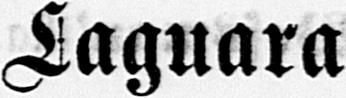Laguara
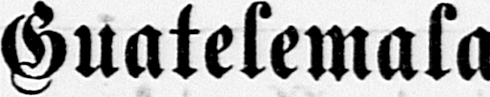Guatelemala
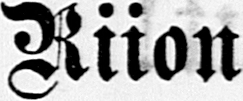Riion
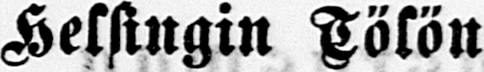Helsingin Tölön
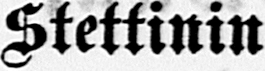Stettinin
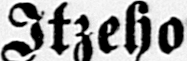Itzeho
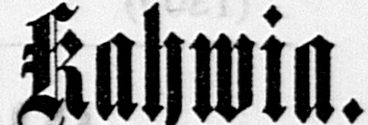Kahwia.
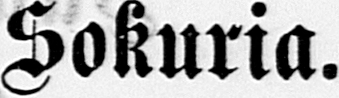Sokuria.
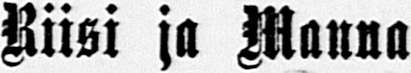Riisi ja Manna
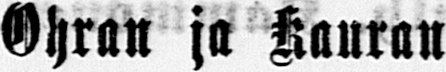Ohran ja kauran
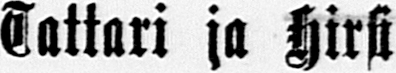Tattari ja Hirsi
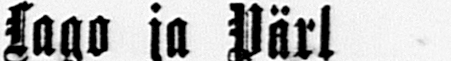Lago ja Pärl
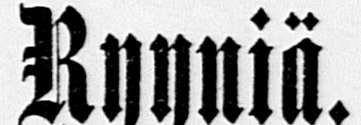Ryyniä.
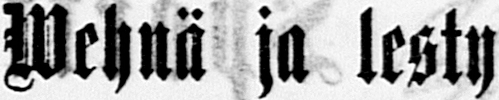Wehnä ja lesty
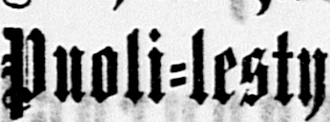Puoli-lesty
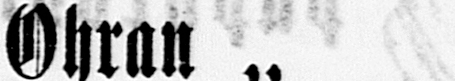Ohran
